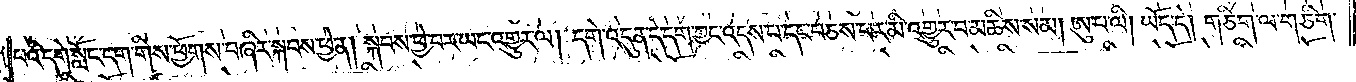པའི་དགེ་སློང་དག་གིས་ཕྱོགས་བཞིར་སྐབས་ཕྱེ་ན། སྐབས་ཕྱེ་བར་ཡང་འགྱུར་ལ། དགེ་འདུན་དེ་དག་ཀྱང་འདས་པ་དང་བཅས་པར་མི་འགྱུར་བ་མཆིས་སམ། ཨུ་པ་ལི། ཡོད་དེ། གཅིག་ལ་གཅིག་
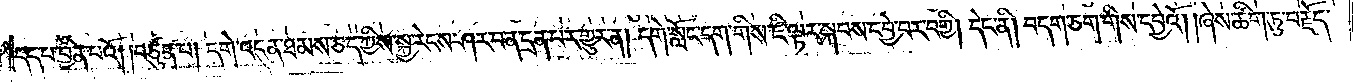དད་པ་བྱིན་པའོ། །བཙུན་པ། དགེ་འདུན་ཐམས་ཅད་ཀྱིས་སྐྱ་རེངས་ཤར་པ་ན་དྲན་པར་གྱུར་ན། དགེ་སློང་དག་གིས་ཇི་ལྟར་སྐབས་དབྱེ་བར་བགྱི། དེང་ནི། བདག་ཅག་གིས་དབྱེའོ། །ཞེས་ཚིག་ཏུ་བརྗོད་
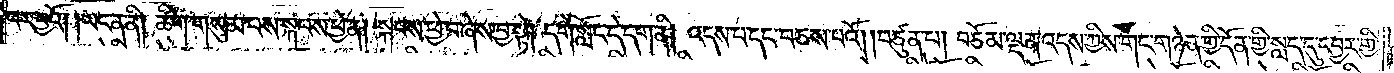།པར་བྱའོ། །ཡང་ན་ནི།  ཚིག་གསུམ་པས་སྐབས་ཕྱེ་ན། སྐབས་ཕྱེ་བ་ཞེས་བྱ་སྟེ། དགེ་སློང་དེ་དག་ནི། འདས་པ་དང་བཅས་པའོ། །བཙུན་པ། བཅོམ་ལྡན་འདས་ཀྱིས་གང་གཉེན་གྱི་དོན་གྱི་སླད་དུ་དབྱར་གྱི་
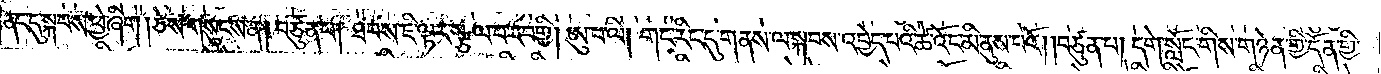ནང་དུ་སྐབས་ཕྱེ་ཞིག །ཅེས་གསུངས་ན། བཙུན་པ། ཐབས་ཇི་ལྟར་སྩལ་བར་བགྱི། ཨུ་པ་ལི། གང་རིང་དུ་གནས་ལ་སྐབས་འབྱེད་པའི་ཚེ་འོང་མི་ནུས་པའོ། །བཙུན་པ། དགེ་སློང་གིས་གཉེན་གྱི་དོན་གྱི་
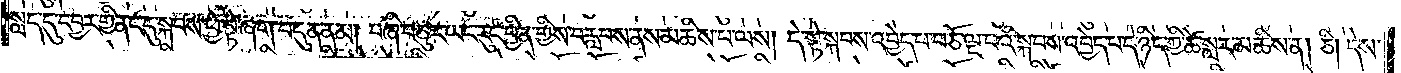སླད་དུ་དབྱར་གྱི་ནང་དུ་སྐབས་ཕྱེ་སྟེ་ཞག་བདུན་ནམ། བཞི་བཅུར་ཡང་རུང་བྱིན་གྱིས་བརླབས་ནས་མཆིས་པ་ལས། དེ་སྟེ་སྐབས་འབྱེད་པ་བཅོ་ལྔ་པའི་སྐབས་འབྱེད་པ་དེ་ཉིད་ཀྱི་ཚེ་སླར་མཆིས་ན། ཅི། དེས་
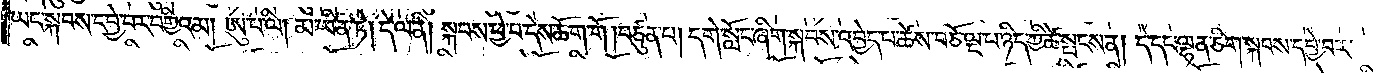ཡང་སྐབས་དབྱེ་བར་བགྱིའམ། ཨུ་པ་ལི། མ་ཡིན་ཏེ། དེ་ལ་ནི། སྐབས་ཕྱེ་བ་དེས་ཆོག་གོ །བཙུན་པ། དགེ་སློང་ཞིག་སྐབས་འབྱེད་པ་ཚེས་བཅོ་ལྔ་པ་ཉིད་ཀྱི་ཚེ་སྤངས་ན། དེ་དང་ལྷན་ཅིག་སྐབས་དབྱེ་བར་
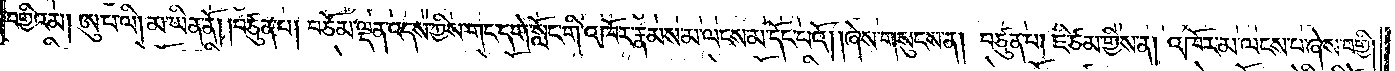བགྱིའམ། ཨུ་པ་ལི། མ་ཡིན་ནོ། །བཙུན་པ། བཅོམ་ལྡན་འདས་ཀྱིས་གང་དགེ་སློང་གི་འཁོར་རྣམས་མ་ལངས་མ་དོང་པའོ། །ཞེས་གསུངས་ན། བཙུན་པ། ཇི་ཙམ་གྱིས་ན། འཁོར་མ་ལངས་པ་ཞེས་བགྱི།
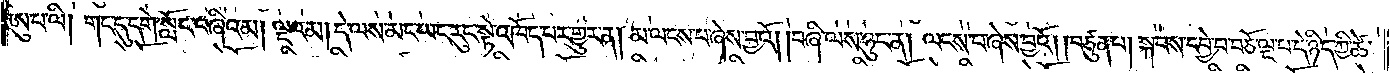ཨུ་པ་ལི། གང་དུ་དགེ་སློང་བཞིའམ། ལྔའམ། དེ་ལས་མང་ཡང་རུང་སྟེ་འཁོད་པར་གྱུར་ན། མ་ལངས་པ་ཞེས་བྱའོ། །བཞི་ལས་ཉུང་ན། ལངས་བ་ཞེས་བྱའོ། །བཙུན་པ། སྐབས་དབྱེ་བ་བཅོ་ལྔ་པ་དེ་ཉིད་ཀྱི་ཚེ་
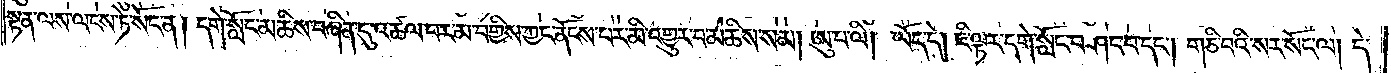སྟན་ལས་ལངས་ཏེ་སོང་ན། དགེ་སློང་མཆིས་བཞིན་དུ་འཚལ་བར་མ་བགྱིས་ཀྱང་ནོངས་པར་མི་འགྱུར་བ་མཆིས་སམ། ཨུ་པ་ལི། ཡོད་དེ། ཇི་ལྟར་དགེ་སློང་བཤང་བ་དང༌། གཅི་བའི་སར་སོང་ལ། དེ་
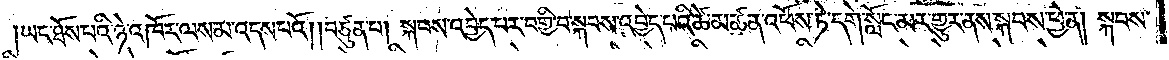།ཡང་ཐོས་པའི་ཉེ་འཁོར་ལས་མ་འདས་པའོ། །བཙུན་པ། སྐབས་འབྱེད་པར་བགྱི་བ་སྐབས་འབྱེད་པའི་ཚེ་མཚན་འཕོས་ཏེ་དགེ་སློང་མར་གྱུར་ནས་སྐབས་ཕྱེ་ན། སྐབས་
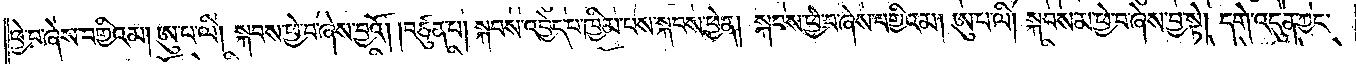ཕྱེ་བ་ཞེས་བགྱིའམ། ཨུ་པ་ལི། སྐབས་ཕྱེ་བ་ཞེ་བྱའོ། །བཙུན་པ། སྐབས་འབྱེད་པ་ཁྱིམ་པས་སྐབས་ཕྱེ་ན། སྐབས་ཕྱེ་བ་ཞེས་བགྱིའམ། ཨུ་པ་ལི། སྐབས་མ་ཕྱེ་བ་ཞེས་བྱ་སྟེ། དགེ་འདུན་ཀྱང་
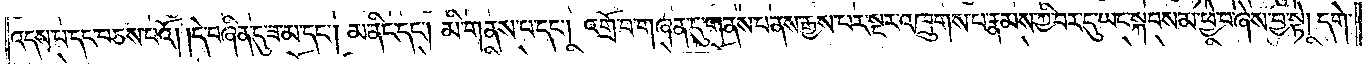འདས་པ་དང་བཅས་པའོ། །དེ་བཞིན་དུ་ཟ་མ་དང༌། མ་ནིང་དང༌། མི་གནས་པ་དང༌། འགྲོ་བ་གཞན་དུ་གནས་པ་ནས་རྒྱས་པར་སྔར་འཁྲུགས་པ་རྣམས་ཀྱི་བར་དུ་ཡང་སྐབས་མ་ཕྱེ་བ་ཞེས་བྱ་སྟེ། དགེ་
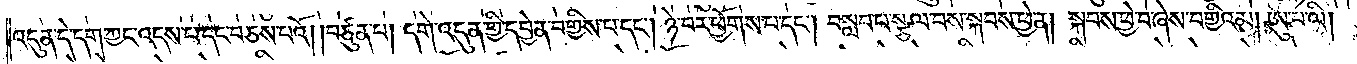འདུན་དེ་དག་ཀྱང་འདས་པ་དང་བཅས་པའོ། །བཙུན་པ། དགེ་འདུན་གྱི་དབྱེན་བགྱིས་པ་དང༌། ཉེ་བར་ཕྱོགས་པ་དང༌། བསླབ་པ་སྩལ་བས་སྐབས་ཕྱེ་ན། སྐབས་ཕྱེ་བ་ཞེས་བགྱིའམ། ཨུ་པ་ལི།
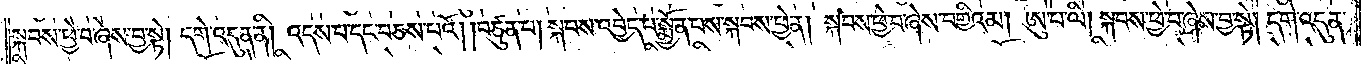སྐབས་ཕྱེ་བ་ཞེས་བྱ་སྟེ། དགེ་འདུན་ནི། འདས་པ་དང་བཅས་པའོ། །བཙུན་པ། སྐབས་འབྱེད་པ་སྨྱོན་པས་སྐབས་ཕྱེ་ན། སྐབས་ཕྱེ་བ་ཞེས་བགྱིའམ། ཨུ་པ་ལི། སྐབས་ཕྱེ་བ་ཞེས་བྱ་སྟེ། དགེ་འདུན་
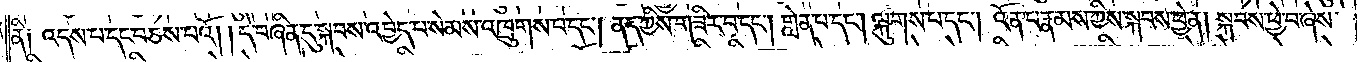ནི༑ འདས་པ་དང་བཅས་པའོ། །དེ་བཞིན་དུ་སྐབས་འབྱེད་པ་སེམས་འཁྲུགས་པ་དང༌། ནད་ཀྱིས་གཟིར་བ་དང༌། གླེན་པ་དང༌། ལྐུགས་པ་དང༌། འོན་པ་རྣམས་ཀྱིས་སྐབས་ཕྱེ་ན། སྐབས་ཕྱེ་བ་ཞེས་
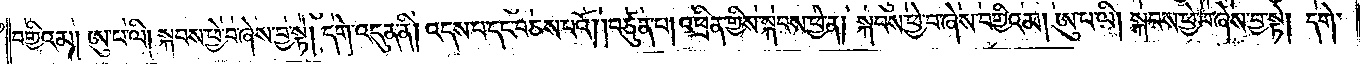བགྱིའམ། ཨུ་པ་ལི། སྐབས་ཕྱེ་བ་ཞེས་བྱ་སྟེ། དགེ་འདུན་ནི། འདས་པ་དང་བཅས་པའོ། །བཙུན་པ། འཕྲིན་གྱིས་སྐབས་ཕྱེ་ན། སྐབས་ཕྱེ་བ་ཞེས་བགྱིའམ། ཨུ་པ་ལི། སྐབས་ཕྱེ་བ་ཞེས་བྱ་སྟེ། དགེ་
